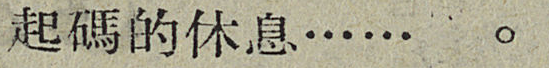起碼的休息……。
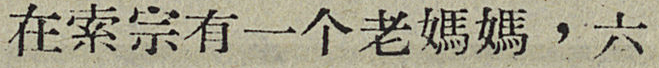在索宗有一个老媽媽，六
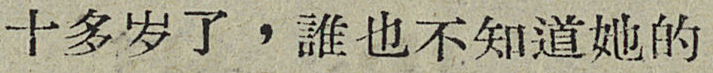十多岁了，誰也不知道她的
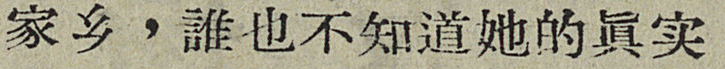家乡，誰也不知道她的眞实
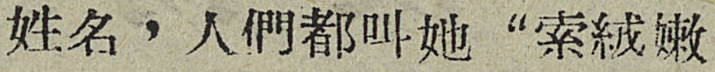姓名，人們都叫她“索絨嫩
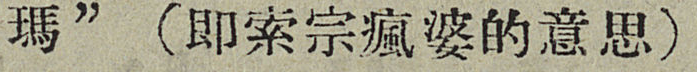瑪”（即索宗瘋婆的意思）
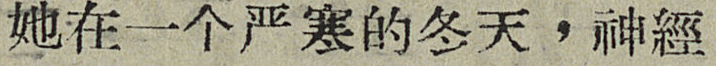她在一个严寒的冬天，神經
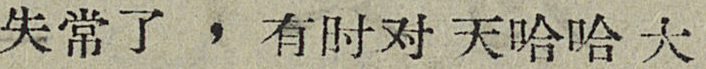失常了，有时对天哈哈大
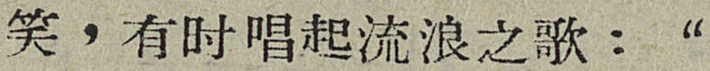笑，有时唱起流浪之歌：“
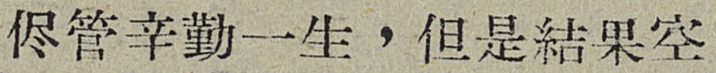侭管辛勤一生，但是結果空
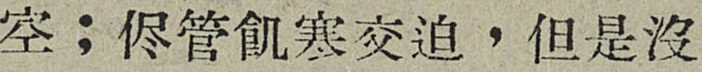空；侭管飢寒交迫，但是沒
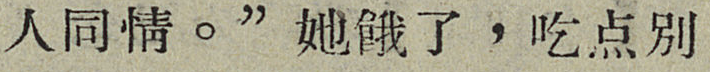人同情。”她餓了，吃点別
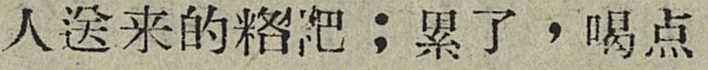人送来的糌粑；累了，喝点
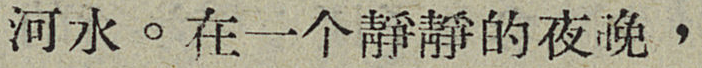河水。在一个靜靜的夜晚，
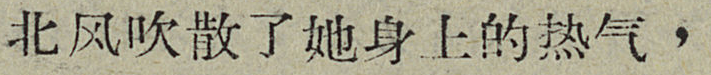北风吹散了她身上的热气，
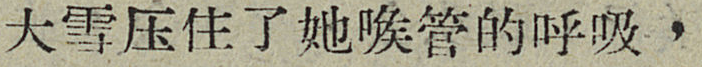大雪压住了她喉管的呼吸，
